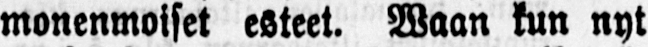monenmoiset esteet. Waan kun nyt
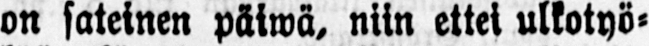on sateinen päiwä, niin ettei ulkotyö-
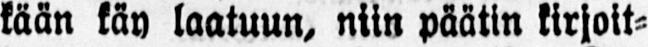kään käy laatuun, niin päätin kirjoit-
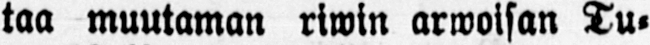taa muutaman riwin arwoisan Tu-
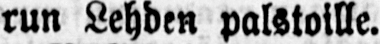run Lehden palstoille.
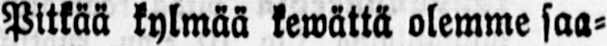Pitkää kylmää kewättä olemme saa-
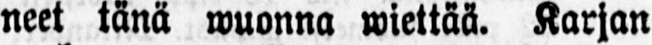neet tänä wuonna wiettää. Karjan
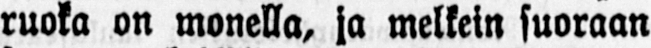ruoka on monella, ja melkein suoraan
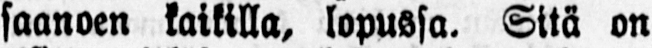saanoen kaikilla, lopussa. Sitä on
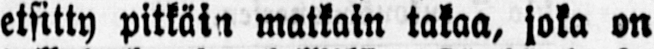etsitty pitkäin matkain takaa, joka on
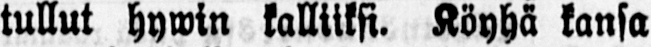tullut hywin kalliiksi. Köyhä kansa
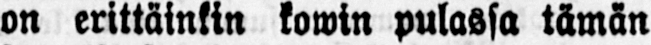on erittäinkin kowin pulassa tämän
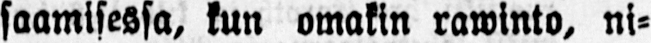saamisessa, kun omakin rawinto, ni-
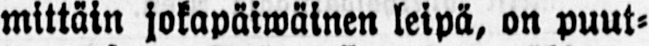mittäin jokapäiwäinen leipä, on puut-
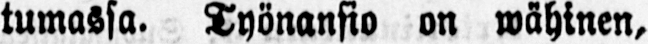tumassa. Työnansio on wähinen,
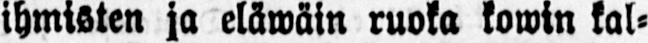ihmisten ja eläwäin ruoka kowin kal-
